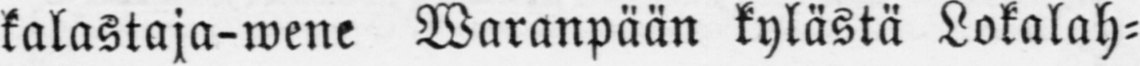kalastaja-wene Waranpään kylästä Lokalah-
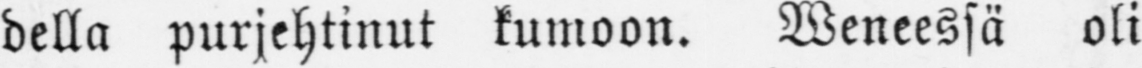della purjehtinut kumoon. Weneessä oli
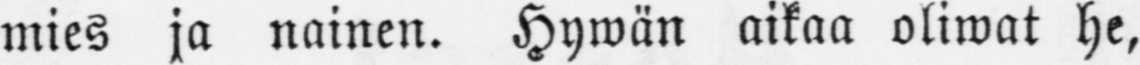mies ja nainen. Hywän aikaa oliwat he,
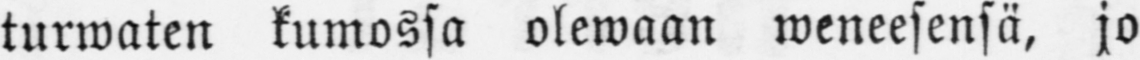turwaten kumossa olewaan weneesensä, jo
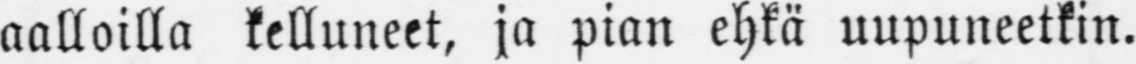aalloilla kelluneet, ja pian ehkä uupuneetkin.
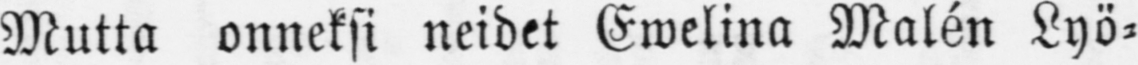Mutta onneksi neidet Ewelina Malén Lyö-
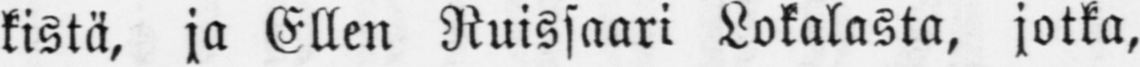kistä, ja Ellen Ruissaari Lokalasta, jotka,
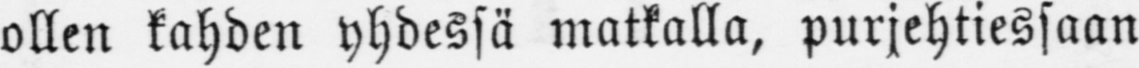ollen kahden yhdessä matkalla, purjehtiessaan
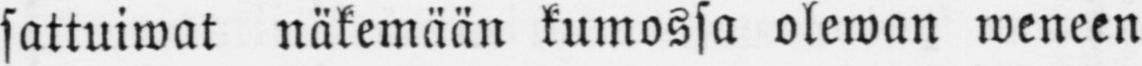sattuiwat näkemään kumossa olewan weneen
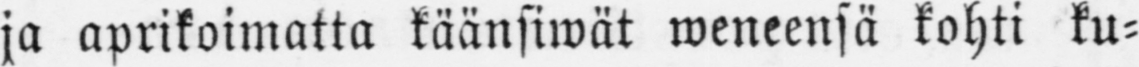ja aprikoimatta käänsiwät weneensä kohti ku-
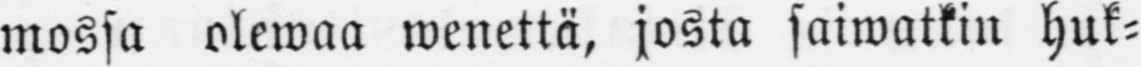mossa olewaa wenettä, josta soiwatkin huk-
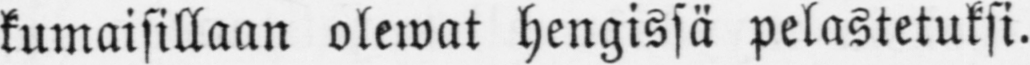kumaisillaan olewat hengissä pelastetuksi.
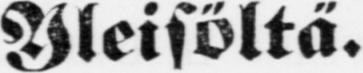Yleisöltä.
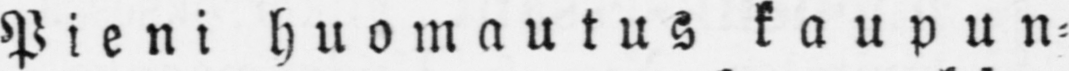Pieni huomautus kaupun-
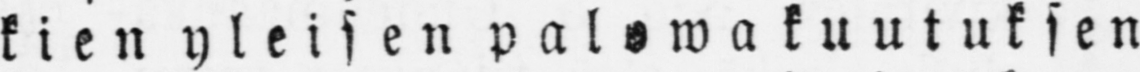kien yleisen pal owakuutuksen
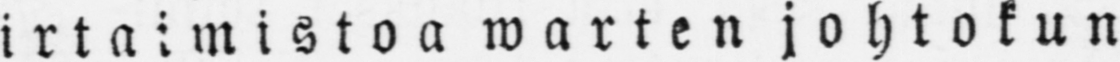irtaimistoa warten johtokun-
